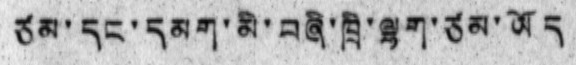ཙམ་དང་དམག་མི་བཞི་ཁྲི་ལྷག་ཙམ་ཡོད
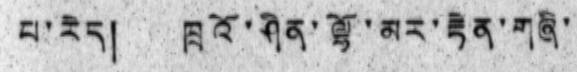པ་རེད། ཁྲའོ་ཤིན་ལྷོ་མར་རྟེན་གཞི་
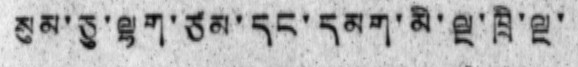སུམ་ཅུ་ལྷག་ཙམ་དང་དམག་མི་ལྔ་ཁྲི་ལྔ་
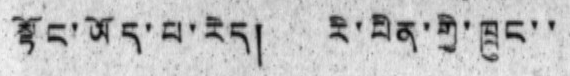སྟོང་ཡོང་པ་རེད། རི་པིན་གྱུ་ཁྲུང་་
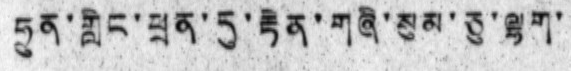ཧྲུན་གླིང་ཕྲན་དུ་རྟེན་གཞི་སུམ་ཅུ་ལྷག་
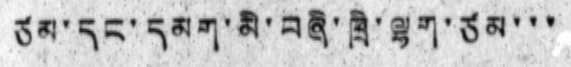ཙམ་དང་དམག་མི་བཞི་ཁྲི་ལྷག་ཙམ་་་
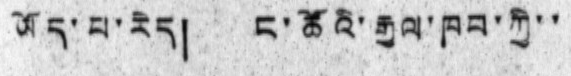ཡོད་པ་རེད། ང་ཚོའི་རྒྱལ་ཁབ་ཀྱི་་
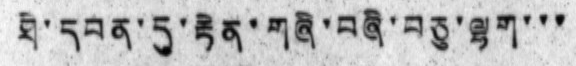ཐེ་དབན་དུ་རྟེན་གཞི་བཞི་བཅུ་ལྷག་་་
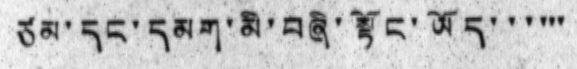ཙམ་དང་དམག་མི་བཞི་སྟོང་ཡོད་་་་་་
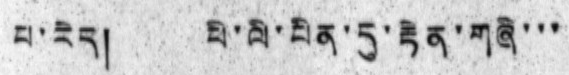པ་རེད། ཕི་ལི་པིན་དུ་རྟེན་གཞི་་་
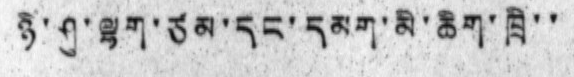ཉི་ཤུ་ལྷག་ཙམ་དང་དམག་མི་ཆིག་ཁྲི་་
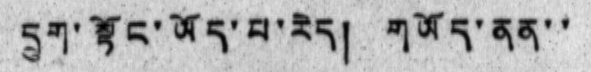དྲུག་སྟོང་ཡོད་པ་རེད། གཡོད་ནན་་
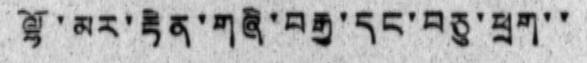ལྷོ་མར་རྟེན་གཞི་བརྒྱ་དང་བཅུ་ཕྲག་་
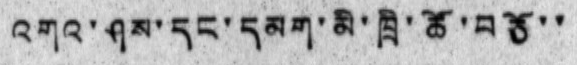འགའ་ཤས་དང་དམག་མི་ཁྲི་ཚོ་བཅོ་་
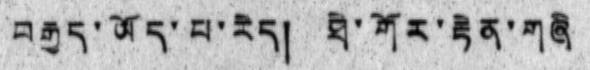བརྒྱད་ཡོད་པ་རེད། ཐེ་གོར་རྟེན་གཞི
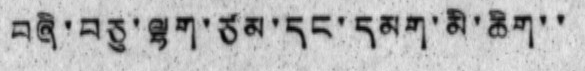བཞི་བཅུ་ལྷག་ཙམ་དང་དམག་མི་ཆིག་་
